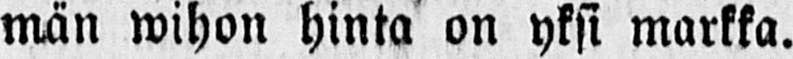män wihon hinta on yksi markka.
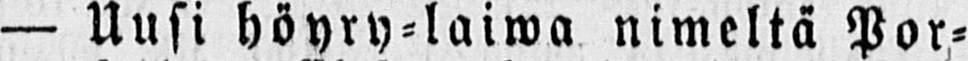— Uusi höyry-laiwa nimeltä Por-
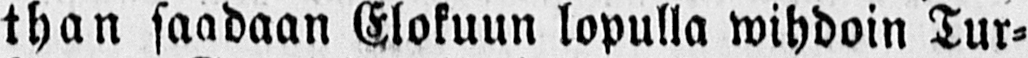than saadaan Elokuun lopulla wihdoin Tur-
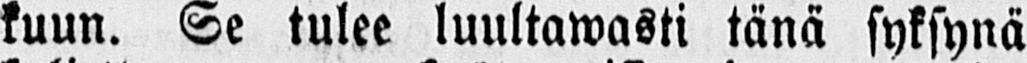kuun. Se tulee luultawasti tänä syksynä
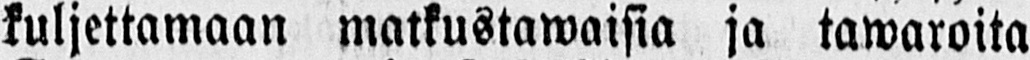kuljettamaan matkustawaisia ja tawaroita
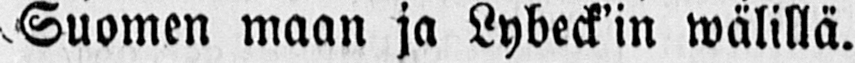Suomen maan ja Lybeck'in wälillä.
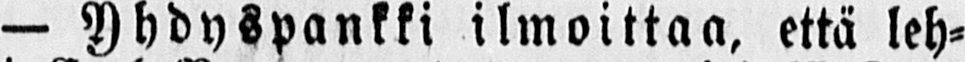— Yhdyspankki ilmoittaa, että leh-
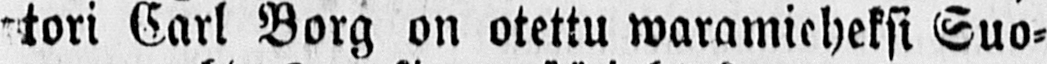tori Carl Borg on otettu waramieheksi Suo-
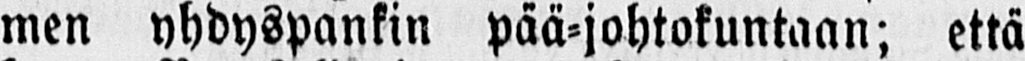men yhdyspankin pää-johtokuntaan; että
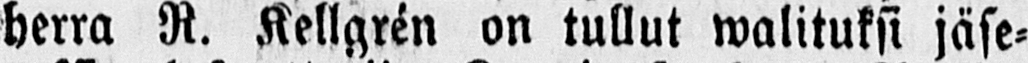herra R. Kellgén on tullut walituksi jäse-
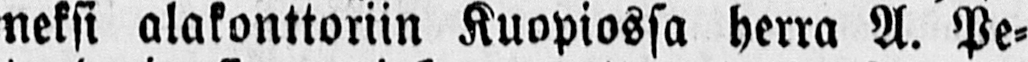neksi alakonttoriin Kuopiossa herra A. Pe-
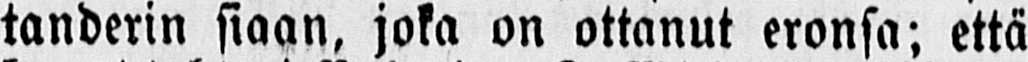tanderin siaan, joka on ottanut eronsa; että
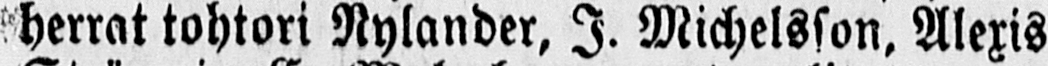Herrat tohtori Nylander, I. Michelsson, Alexis
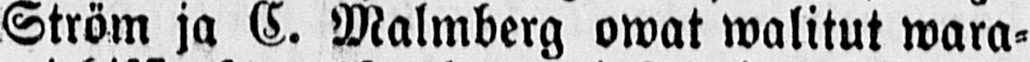Ström ja C. Malmberg owat walitut wara-
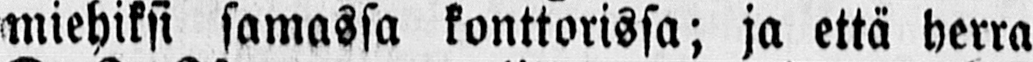miehiksi samassa konttorissa; ja että herra
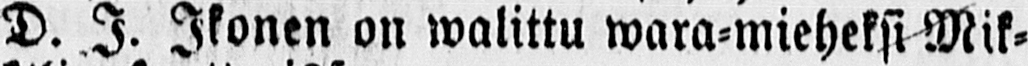D. J. Ikonen on walittu wara-mieheksi Mik-
